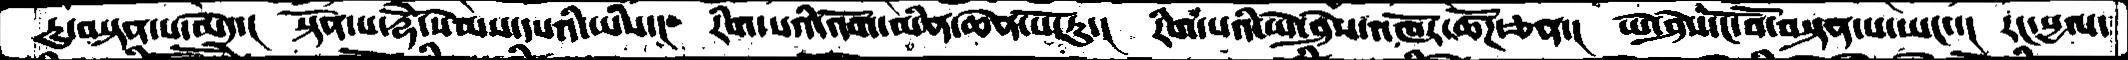ཏུ་བསྟན་པ་མེད་།  སྟོན་པ་རྡོེ་་སེམས་དཔའི་ཡིས་།  རིག་པའི་འོག་མིན་ཆེན་པོ་ཏུ་།  རིག་པའི་ཡེ་ཤེས་འཁོར་ཚོཌ་ཅན་།  ཡེ་ཤེས་ངོ་བོ་བསྟན་པ་ཡང་་།  རང་སྱལ་
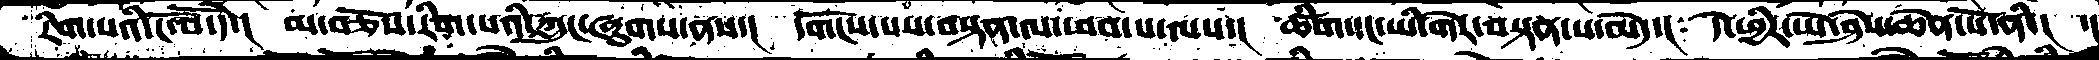རིག་པའི་ངོ་བོ་དེ་།  མ་བཅོས་རིག་པའི་ཀླུང་ཞུགས་ནས་།  དགོངས་པས་བསྟན་ལ་ཕབ་པ་ལས་།  ཚིག་དང་ཡི་གེར་བསྟན་པ་མེད་།  དེ་ཕྱིར་ཡེ་ཤེས་ཆེན་པོ་ནི་།   ་།
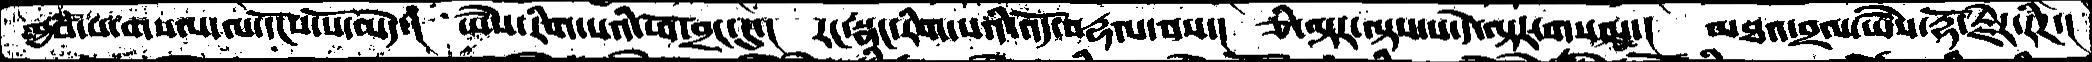ཁྱབ་པ་གསལ་ལ་དངོས་པོ་མེད་།  ཡཻས་རིག་པའི་ཕོ་བྲང་དུ་།  རང་སྣང་རིག་པའི་འོད་བརྡལ་བས་།  ཅི་ལྟར་ལྟས་པ་དེ་ལྟར་གསལ་།  མཐའ་བྲལ་ཡཻས་རྡོ་རྗེར་རིཌ་།
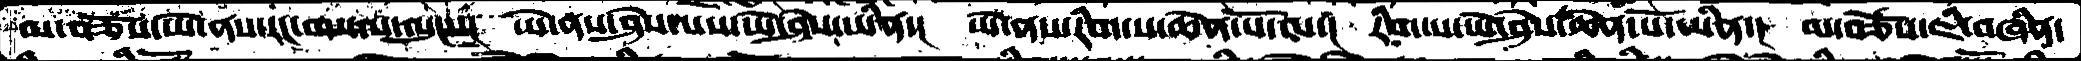མ་བཅོས་ཡེ་ནས་རང་གསལ་ལུང་་།  ཡེ་ནས་ཤེས་ལས་ཡེ་ཤེས་ཡིན་།  ཡེ་ནས་རིག་པ་ཆེན་པོ་ལ་།  རིག་པ་ཡེ་ཤེས་ཆེན་པོ་ཡིན་།  མ་བཅོས་ཇི་བཞིན་
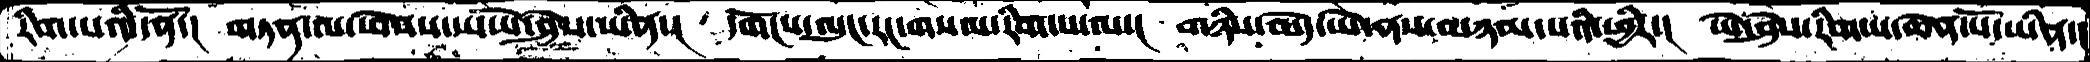རིག་པའི་དོན་།  གཏན་ལ་ཕེབས་པ་ཡེ་ཤེས་ཡིན་།  དགོངས་ལུང་རང་གསལ་རིག་པ་ལ་།  གཉིས་མེད་ཡེ་ནས་མཉམ་པའི་ཕྱིར་།  ཡེ་ཤེས་རིག་པ་ཆེན་པོ་ཡིན་།
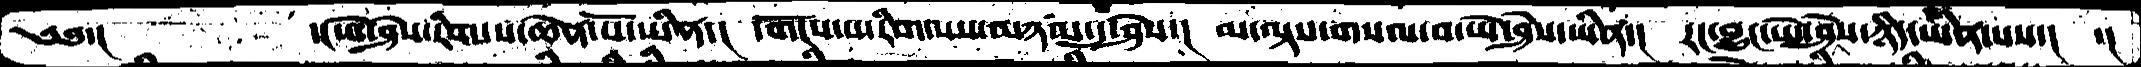༄༅་།         ་།ཡེ་ཤེས་རིག་པ་ཆེན་པོ་ཡིན་།  དགོངས་པ་རིག་པས་མཉམ་དུ་ཤེས་།  མ་ལྟས་གསལ་བ་ཡེ་ཤེས་ཡིན་།  རང་བྱུང་ཡེ་ཤེས་ཉིད་ཡིན་པས་།   ་།
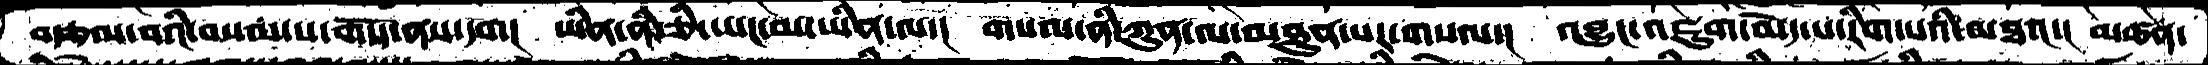བརྩལ་བའི་བསམ་པ་གདོད་ནས་དག།  ཡིན་ནི་ཅི་ཡང་མ་་ཡིན་ལ་།  གསལ་ནི་ཀུན་ལ་མཐུན་པར་གསལ་།  འབྱུང་འཇུག་མེད་པ་རིག་པའི་མཐའ་།  མཚན་
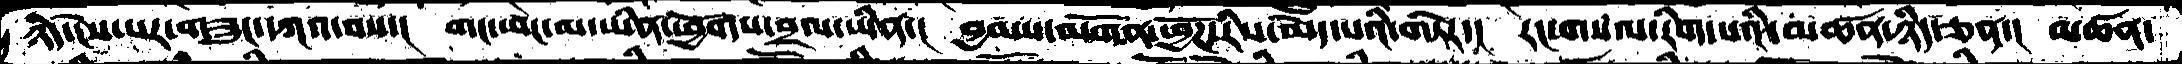ཉིད་ངེས་པར་གཟུང་དཀའ་བས་།  གང་ཡང་མ་ཡིན་ཕྱོགས་བྲལ་ཡིན་།  བྱམས་མགོན་ཕྱོཌ་རིས་མེད་པའི་གཏེར་།  རང་གསལ་རིག་པའི་མཚན་ཉིད་ཅན་།  མཚན་
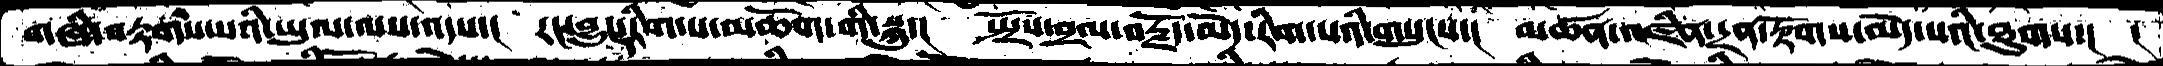གཞི་བརྟགས་པའི་ཡུལ་ལས་འདས་།  རང་བྱུང་རིག་པ་མཆོག་གི་སྐུ་།  སྤྲོས་བྲལ་བརྗོད་མེད་རིག་པའི་གསུངས་།  མཚན་འཛིན་དྲན་རྟོགས་མེད་པའི་ཐུགས་།  །
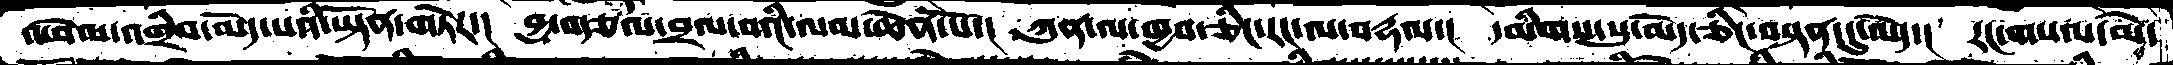འཕེལ་འགྲིབ་མེད་པའི་ཡྟོན་གཏེར་།  བྱ་བརྩལ་བྲལ་བའི་ལམ་ཆེན་པོ་།  ཀུན་ལ་ཁྱབ་ཅིང་རང་ལ་བརྡལ་།  དམིགས་སུ་མེད་ཅིང་བསྟན་དུ་མེད་།  རང་གསལ་མེ་
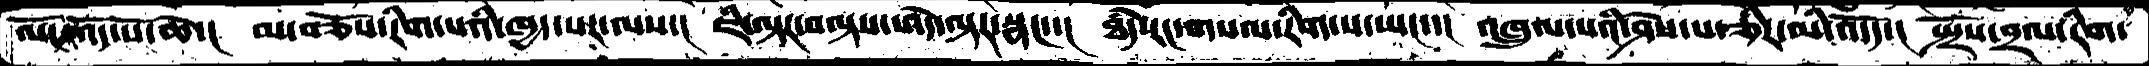ལོང་འོད་པོ་ཆེ་།   མ་བཅོས་རིག་པའི་ཁྱད་པར་ལས་།  ཇི་ལྟར་བལྟས་པ་དེ་ལྟར་སྣང་་།  ཐཾད་རང་གསལ་རིག་པ་ཡང་་།  འཁྲུལ་པའི་ཤེས་པ་ཅིར་མི་འདོད་།  སྤྲོས་བྲལ་རིག་
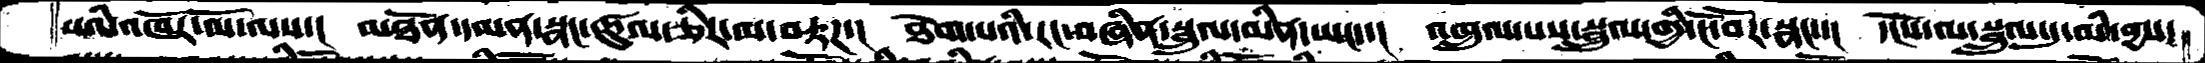པའི་འཁོར་ལོ་ལས་།  མཐོན་དམན་སྣང་ཚུལ་ཅིར་མ་བརྟཌ་།  ཐེག་པའི་རང་བཞིན་སྦྲུལ་མིན་ཡང་་།  འཁྲུལ་པས་སྦྲུལ་གྱི་ངོ་བོར་སྣང་་།  དངོས་མ་སྦྲུལ་དུ་མི་ནྱས་
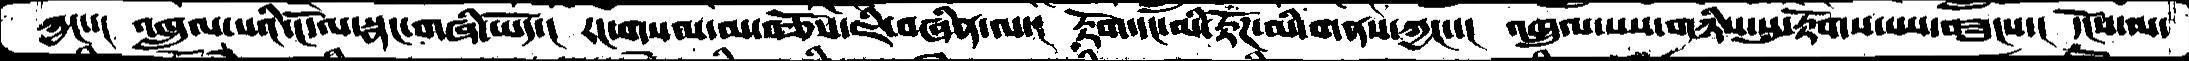ཀྱང་་།  འཁྲུལ་པའི་ངོ་ལ་སྣང་གཞི་ཡོད་།  རང་གསལ་མ་བཅོས་ཇི་བཞིན་ལ་།  རྟོག་དང་མི་རྟོཌ་མི་གནས་ཀྱང་་།  འཁྲུལ་པས་གཉིས་སུ་རྟོགས་པས་བཟུངས་།   དངོས་ལ་
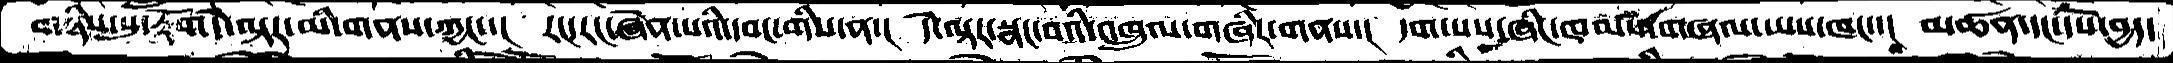གཉིས་སུ་རྟོག་དེ་ལྟར་མི་གནས་ཀྱང་་།  རང་རང་ཞེན་པའི་དབང་གིས་ན་།  དེ་ལྟར་སྣང་བའི་འཁྲུལ་གཞིར་གནས་།  དག་པས་ཞིང་ཁམས་གཞལ་ཡས་ཁང་་།  མཚན་དང་དཔེ་བྱད་
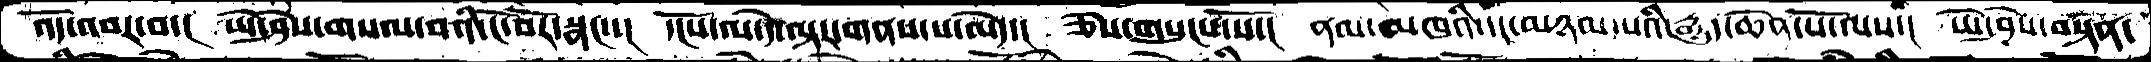འོད་འབར་བ་།  ཡེ་ཤེས་གསལ་བའི་ངོ་བོར་སྣང་་།  དངོས་ལ་དེ་ལྟར་གནས་པ་མེད་།  ཅེས་གསུངས་སོ་།  ནམ་མཁའི་དང་མཉམ་པའི་རྒྱུད་ཆེན་པོ་ལས་།  ཡེ་ཤེས་བསྟན་
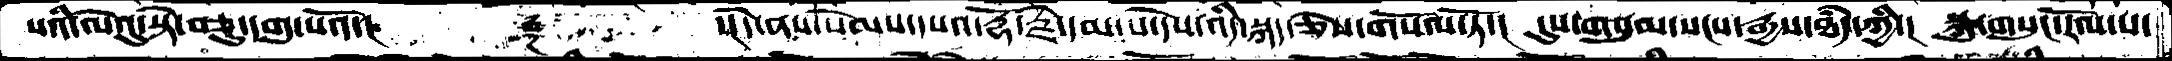པའི་ལེའུ་སྟེ་བཅུ་དགུ་པའོ་།།    ༈   ་།དེ་ནས་སེམས་དཔའ་རྡོ་རྗེ་དམ་པ་དེས་འདི་སྐད་ཅེས་གསོལ་ཏོ་། དུས་གསུམ་སངས་རྒྱས་ཐདཾ་ཀྱི་། སྐུ་གསུང་རོལ་པ་
